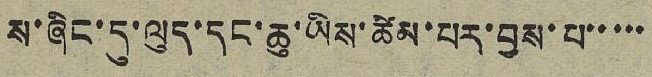ས་ཞིང་དུ་ལུད་དང་ཆུ་ཡིས་ཚེམ་པར་བྱས་པ་་་་་
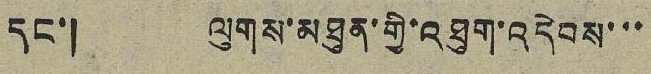དང་། ལུགས་མཐུན་གྱི་འཐུག་འདེབས་་་
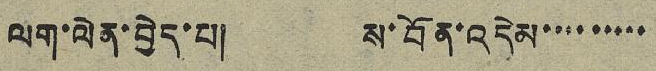ལག་ལེན་བྱེད་པ། ས་བོན་འདེམ་་་་་་་་་
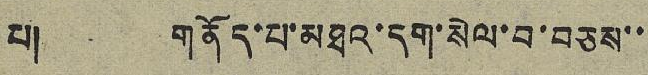པ། གནོད་པ་མཐའ་དག་སེལ་བ་བཅས་་
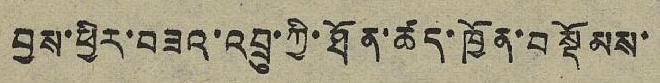བྱས་ཕྱིར་བཟའ་འབྲུ་ཀྱི་ཐོན་ཚད་ཁྱོན་བསྡོམས་
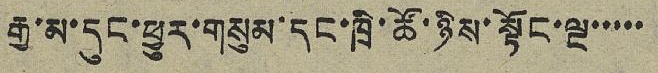རྒྱ་མ་དུང་ཕྱུར་གསུམ་དང་ཁྲི་ཚོ་ཉིས་སྟོང་ལྔ་་་་་
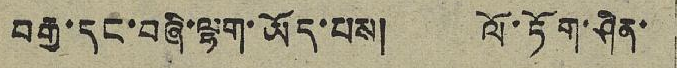བརྒྱ་དང་བཞི་ལྷག་ཡོད་པས། ལོ་ཏོག་ཤིན་
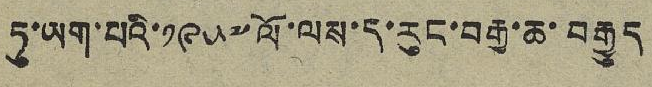ཏུ་ཡག་པའི་ ༡༩༥༧ ལོ་ལས་ད་རུང་བརྒྱ་ཆ་བརྒྱུད
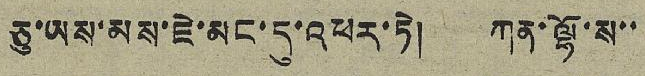ཅུ་ཡས་མས་ཇེ་མང་དུ་འཕར་ཏེ། ཀན་ལྷོ་ས་་
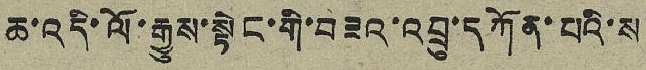ཆ་འདི་ལོ་རྒྱུས་སྟེང་གི་བཟའ་འབྲུ་དཀོན་པའི་ས
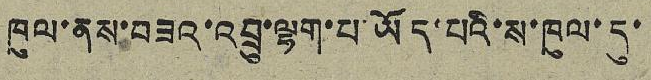ཁུལ་ནས་བཟའ་འབྲུ་ལྷག་པ་ཡོད་པའི་ས་ཁུལ་དུ་
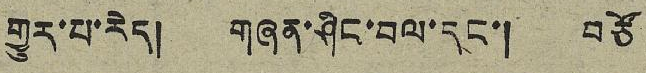གྱུར་པ་རེད། གཞན་ཤིང་བལ་དང་། བཙོ་
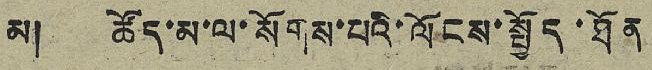མ། ཚོད་མ་ལ་སོགས་པའི་ལོངས་སྤྱོད་ཐོན
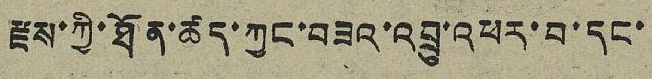རྫས་ཀྱི་ཐོན་ཚད་ཀྱང་བཟའ་འབྲུ་འཕར་བ་དང་
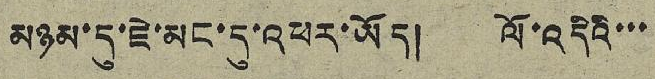མཉམ་དུ་ཇེ་མང་དུ་འཕར་ཡོད། ལོ་འདིའི་་་
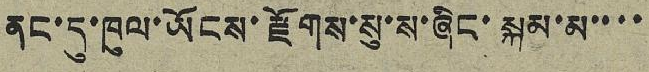ནང་དུ་ཁུལ་ཡོངས་རྫོགས་སུ་ས་ཞིང་སྐམ་མ་་་་
